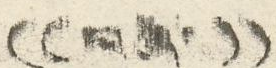(( བཞི་ ))
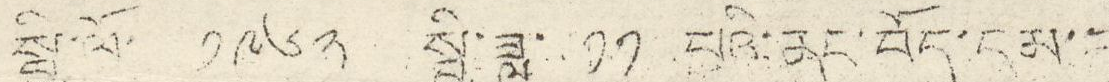སྤྱི་ལོ་ ༡༩༦༢ སྤྱི་ཟླ་ ༡༡ པའི་ནང་བོད་ངམ་་
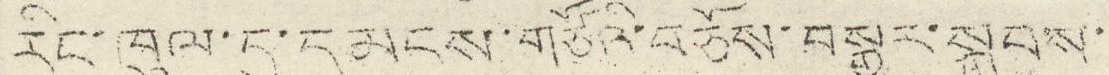རིང་ཁུལ་དུ་དམངས་གཙོའི་བཅོས་བསྒྱུར་སྐབས་
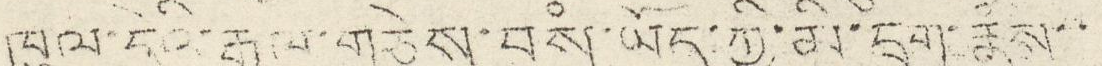ཁུལ་དེའི་རྒྱལ་གཅེས་བསཾ་ཡོད་ཀྱི་མི་དྲག་རྣཾས་་
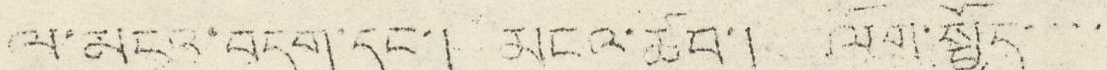ལ་མངའ་བདག་དང་། མངའ་ཆབ་། ལོག་སྤྱོད་་་་
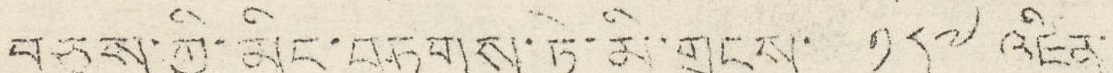བཅས་ཀྱི་མིང་བཏགས་ཏེ་མི་གྲངས་ ༡༨༧ འཛིན་
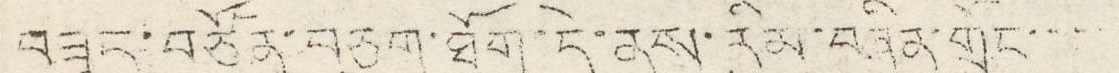བཟུང་བཙོན་བཅུག་ཐོག་དེ་ནས་རིམ་བཞིན་གྲོང་་་་
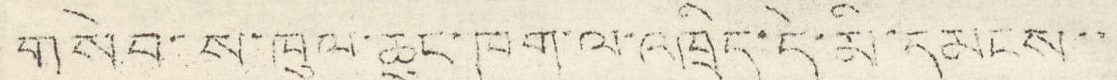གསེབ་ས་ཁུལ་ཆུང་ཁག་ལ་འཁྲིད་དེ་མི་དམངས་་
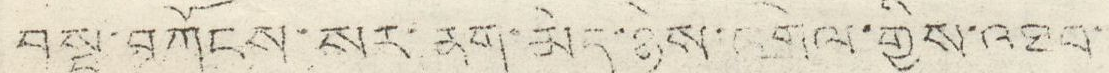བསྡུ་བཀོངས་སར་ནག་མེད་ཉེས་འགྲེལ་གྱིས་འཐབ་
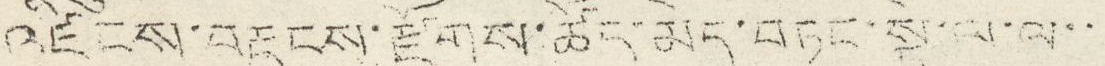འཛིངས་བརྡུངས་རྫོགས་ཚོད་མེད་བཏང་སྟེ་ལ་ལ་་
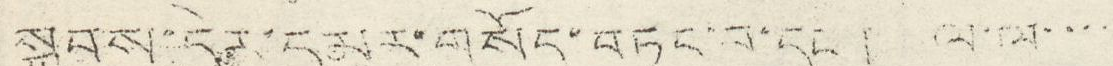སྐབས་དེར་དམར་གསོད་བཏང་བ་དང་། ལ་ལ་་་་
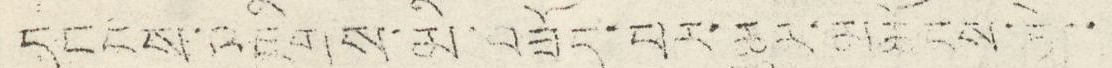དངངས་འཇིགས་མི་བཟོད་པར་ཆུར་མཆོངས་ཏེ་་
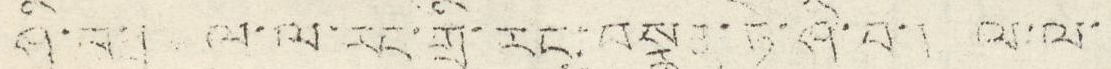ཤི་བ་། ལ་ལ་རང་གྲི་རང་བསྣུན་ཏེ་ཤི་བ་། ལ་ལ་
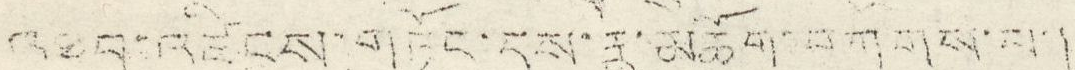འཐབ་འཛིངས་གཏོང་དུས་རྣ་མཆོག་བཀོགས་པ་།
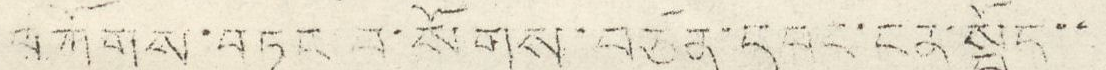བཀོགས་བཏང བ་སོགས་བཙན་དབང་ངན་སྤྱོད་་
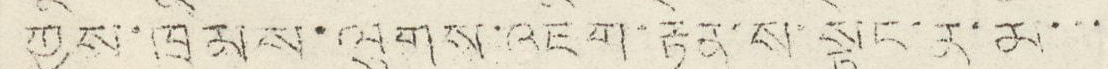ཀྱིས་ཁྲིམས་ལུགས་འཇིག་རྟེན་ས་སྟེང་ན་མ་་་
